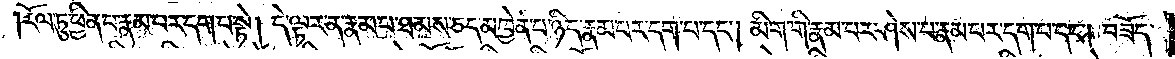རོལ་ཏུ་ཕྱིན་པ་རྣམ་པར་དག་པ་སྟེ། དེ་ལྟར་ན་རྣམ་པ་ཐམས་ཅད་མཁྱེན་པ་ཉིད་རྣམ་པར་དག་པ་དང༌། མིག་གི་རྣམ་པར་ཤེས་པ་རྣམ་པར་དག་པ་དང༌། བཟོད་
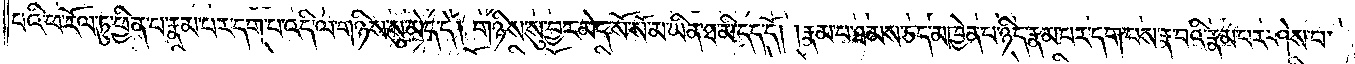པའི་ཕ་རོལ་ཏུ་ཕྱིན་པ་རྣམ་པར་དག་པ་འདི་ལ་གཉིས་སུ་མེད་དེ། གཉིས་སུ་བྱར་མེད་སོ་སོ་མ་ཡིན་ཐ་མི་དད་དོ། །རྣམ་པ་ཐམས་ཅད་མཁྱེན་པ་ཉིད་རྣམ་པར་དག་པས་རྣ་བའི་རྣམ་པར་ཤེས་པ་
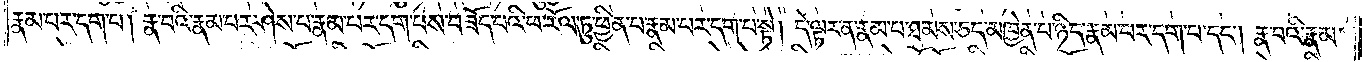རྣམ་པར་དག་པ། རྣ་བའི་རྣམ་པར་ཤེས་པ་རྣམ་པར་དག་པས་བཟོད་པའི་ཕ་རོལ་ཏུ་ཕྱིན་པ་རྣམ་པར་དག་པ་སྟེ། དེ་ལྟར་ན་རྣམ་པ་ཐམས་ཅད་མཁྱེན་པ་ཉིད་རྣམ་པར་དག་པ་དང༌། རྣ་བའི་རྣམ་
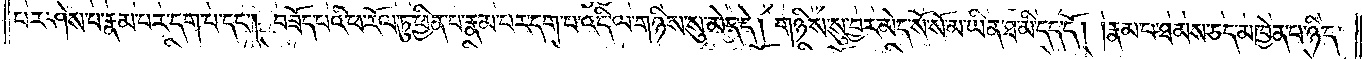པར་ཤེས་པ་རྣམ་པར་དག་པ་དང༌། བཟོད་པའི་ཕ་རོལ་ཏུ་ཕྱིན་པ་རྣམ་པར་དག་པ་འདི་ལ་གཉིས་སུ་མེད་དེ། གཉིས་སུ་བྱར་མེད་སོ་སོ་མ་ཡིན་ཐ་མི་དད་དོ། །རྣམ་པ་ཐམས་ཅད་མཁྱེན་པ་ཉིད་
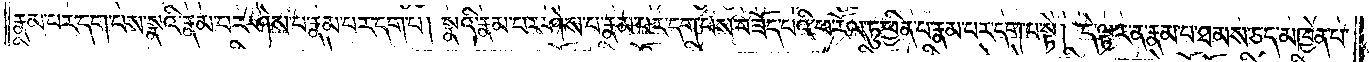རྣམ་པར་དག་པས་སྣའི་རྣམ་པར་ཤེས་པ་རྣམ་པར་དག་པ། སྣའི་རྣམ་པར་ཤེས་པ་རྣམ་པར་དག་པས་བཟོད་པའི་ཕ་རོལ་ཏུ་ཕྱིན་པ་རྣམ་པར་དག་པ་སྟེ། དེ་ལྟར་ན་རྣམ་པ་ཐམས་ཅད་མཁྱེན་པ་
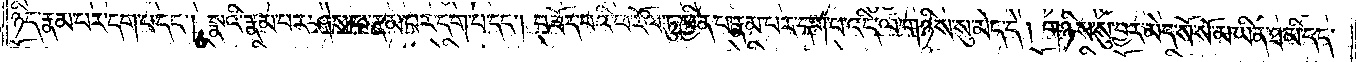ཉིད་རྣམ་པར་དག་པ་དང༌། སྣའི་རྣམ་པར་ཤེས་པ་རྣམ་པར་དག་པ་དང༌། བཟོད་པའི་ཕ་རོལ་ཏུ་ཕྱིན་པ་རྣམ་པར་དག་པ་འདི་ལ་གཉིས་སུ་མེད་དེ། གཉིས་སུ་བྱར་མེད་སོ་སོ་མ་ཡིན་ཐ་མི་དད་
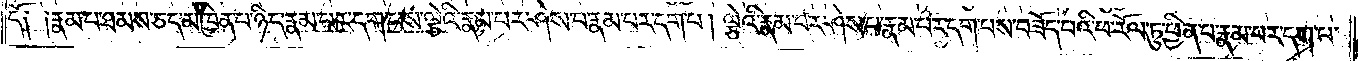དོ༑ ༑རྣམ་པ་ཐམས་ཅད་མཁྱེན་པ་ཉིད་རྣམ་པར་དག་པས་ལྕེའི་རྣམ་པར་ཤེས་པ་རྣམ་པར་དག་པ། ལྕེའི་རྣམ་པར་ཤེས་པ་རྣམ་པར་དག་པས་བཟོད་པའི་ཕ་རོལ་ཏུ་ཕྱིན་པ་རྣམ་པར་དག་པ་
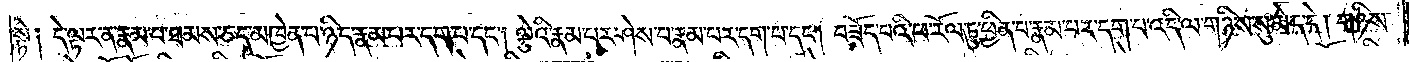སྟེ༑ དེ་ལྟར་ན་རྣམ་པ་ཐམས་ཅད་མཁྱེན་པ་ཉིད་རྣམ་པར་དག་པ་དང༌། ལྕེའི་རྣམ་པར་ཤེས་པ་རྣམ་པར་དག་པ་དང༌། བཟོད་པའི་ཕ་རོལ་ཏུ་ཕྱིན་པ་རྣམ་པར་དག་པ་འདི་ལ་གཉིས་སུ་མེད་དེ། གཉིས་
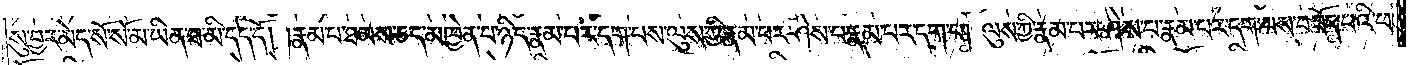སུ་བྱར་མེད་སོ་སོ་མ་ཡིན་ཐ་མི་དད་དོ། །རྣམ་པ་ཐམས་ཅད་མཁྱེན་པ་ཉིད་རྣམ་པར་དག་པས་ལུས་ཀྱི་རྣམ་པར་ཤེས་པ་རྣམ་པར་དག་པ། ལུས་ཀྱི་རྣམ་པར་ཤེས་པ་རྣམ་པར་དག་པས་བཟོད་པའི་ཕ་
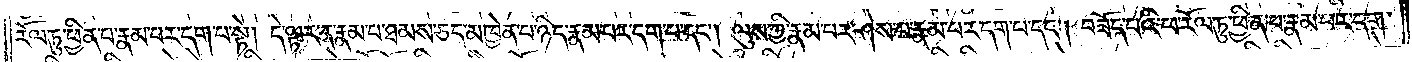རོལ་ཏུ་ཕྱིན་པ་རྣམ་པར་དག་པ་སྟེ། དེ་ལྟར་ན་རྣམ་པ་ཐམས་ཅད་མཁྱེན་པ་ཉིད་རྣམ་པར་དག་པ་དང༌། ལུས་ཀྱི་རྣམ་པར་ཤེས་པ་རྣམ་པར་དག་པ་དང༌། བཟོད་པའི་ཕ་རོལ་ཏུ་ཕྱིན་པ་རྣམ་པར་དག་
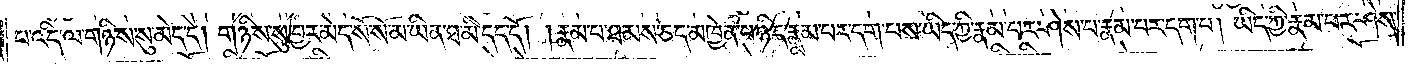པ་འདི་ལ་གཉིས་སུ་མེད་དེ། གཉིས་སུ་བྱར་མེད་སོ་སོ་མ་ཡིན་ཐ་མི་དད་དོ། །རྣམ་པ་ཐམས་ཅད་མཁྱེན་པ་ཉིད་རྣམ་པར་དག་པས་ཡིད་ཀྱི་རྣམ་པར་ཤེས་པ་རྣམ་པར་དག་པ། ཡིད་ཀྱི་རྣམ་པར་ཤེས་
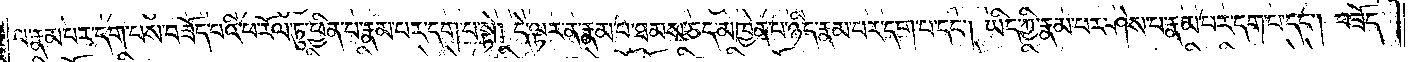པ་རྣམ་པར་དག་པས་བཟོད་པའི་ཕ་རོལ་ཏུ་ཕྱིན་པ་རྣམ་པར་དག་པ་སྟེ། དེ་ལྟར་ན་རྣམ་པ་ཐམས་ཅད་མཁྱེན་པ་ཉིད་རྣམ་པར་དག་པ་དང༌། ཡིད་ཀྱི་རྣམ་པར་ཤེས་པ་རྣམ་པར་དག་པ་དང༌། བཟོད་
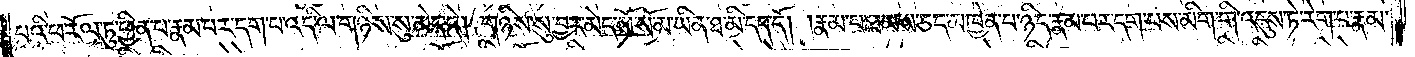པའི་ཕ་རོལ་ཏུ་ཕྱིན་པ་རྣམ་པར་དག་པ་འདི་ལ་གཉིས་སུ་མེད་དེ། གཉིས་སུ་བྱར་མེད་སོ་སོ་མ་ཡིན་ཐ་མི་དད་དོ། །རྣམ་པ་ཐམས་ཅད་མཁྱེན་པ་ཉིད་རྣམ་པར་དག་པས་མིག་གི་འདུས་ཏེ་རེག་པ་རྣམ་
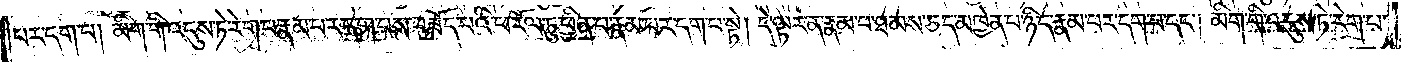པར་དག་པ། མིག་གི་འདུས་ཏེ་རེག་པ་རྣམ་པར་དག་པས་བཟོད་པའི་ཕ་རོལ་ཏུ་ཕྱིན་པ་རྣམ་པར་དག་པ་སྟེ། དེ་ལྟར་ན་རྣམ་པ་ཐམས་ཅད་མཁྱེན་པ་ཉིད་རྣམ་པར་དག་པ་དང༌། མིག་གི་འདུས་ཏེ་རེག་པ་
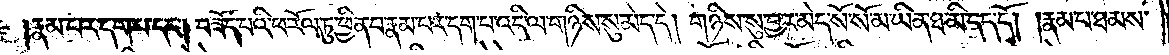རྣམ་པར་དག་པ་དང༌། བཟོད་པའི་ཕ་རོལ་ཏུ་ཕྱིན་པ་རྣམ་པར་དག་པ་འདི་ལ་གཉིས་སུ་མེད་དེ། གཉིས་སུ་བྱར་མེད་སོ་སོ་མ་ཡིན་ཐ་མི་དད་དོ། །རྣམ་པ་ཐམས་
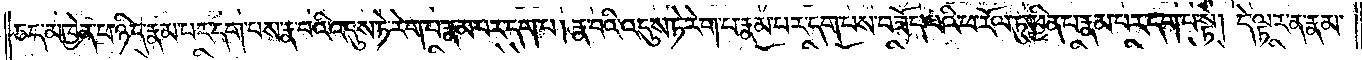ཅད་མཁྱེན་པ་ཉིད་རྣམ་པར་དག་པས་རྣ་བའི་འདུས་ཏེ་རེག་པ་རྣམ་པར་དག་པ། རྣ་བའི་འདུས་ཏེ་རེག་པ་རྣམ་པར་དག་པས་བཟོད་པའི་ཕ་རོལ་ཏུ་ཕྱིན་པ་རྣམ་པར་དག་པ་སྟེ། དེ་ལྟར་ན་རྣམ་
